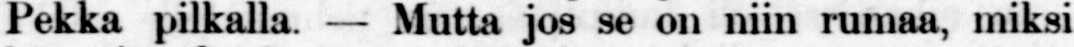Pekka pilkalla. — Mutta jos se on niin rumaa, miksi
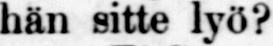hän sitte lyö?
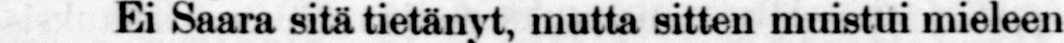Ei Saara sitä tietänyt, mutta sitten muistui mieleen-
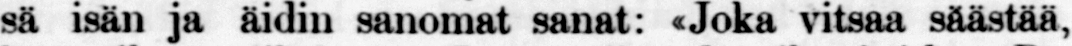sä isän ja äidin sanomat sanat: vitsaa säästää,
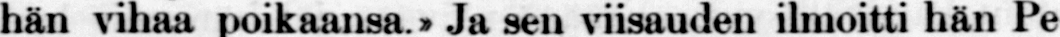hän vihaa poikaansa.» ja sen viisauden ilmoitti hän Pe-
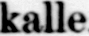kalle.
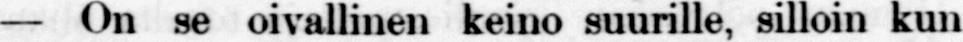— On se oivallinen keino suurille, silloin kun
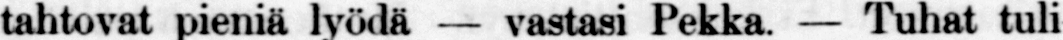tahtovat pieniä lyödä — vastasi Pekka. — Tuhat tuli-
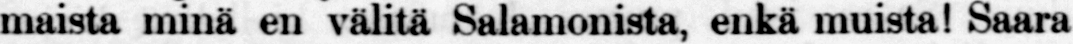maista minä en välitä Salamonista, enkä muista! Saara
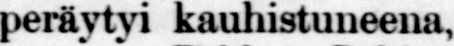peräytyi kauhistuneena,
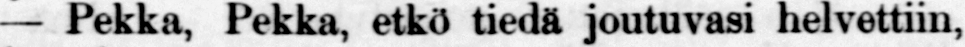— Pekka, Pekka, etkö tiedä joutuvasi helvettiin,
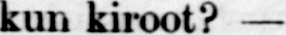kun kiroot? —
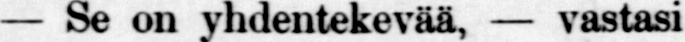— Se on yhdentekevää, — vastasi
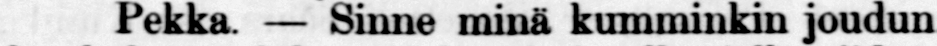Pekka — Sinne minä kumminkin joudun. Mutta
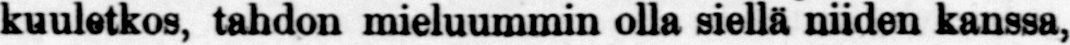kuuletkos, tahdon mieluummin olla siellä niiden kanssa.
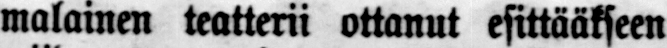malainen teatterii ottanut esittääkseen
